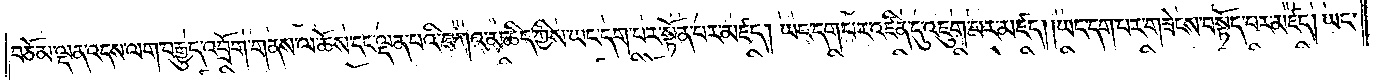བཅོམ་ལྡན་འདས་ལག་བརྒྱུད་འབྲོག་གནས་ལ་ཆོས་དང་ལྡན་པའི་བཀའ་མཆིད་ཀྱིས་ཡང་དག་པར་སྟོན་པར་མཛད། ཡང་དག་པར་འཛིན་དུ་འཇུག་པར་མཛད། །ཡང་དག་པར་གཟེངས་བསྟོད་པར་མཛད། ཡང་
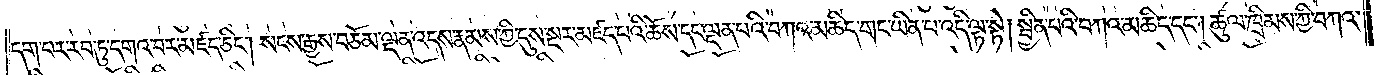དག་པར་རབ་ཏུ་དགའ་བར་མཛད་ཅིང༌། སངས་རྒྱས་བཅོམ་ལྡན་འདས་རྣམས་ཀྱི་དུས་སྔར་མཛད་པའི་ཆོས་དང་ལྡན་པའི་བཀའ་མཆིད་གང་ཡིན་པ་འདི་ལྟ་སྟེ། སྦྱིན་པའི་བཀའ་མཆིད་དང༌། ཚུལ་ཁྲིམས་ཀྱི་བཀའ་
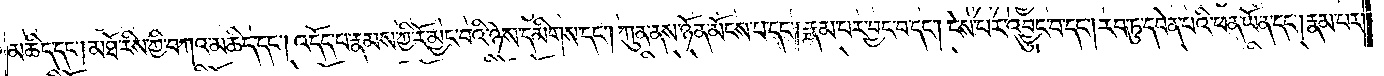མཆིད་དང༌། མཐོ་རིས་ཀྱི་བཀའ་མཆིད་དང༌། འདོད་པ་རྣམས་ཀྱི་རོ་མྱང་བའི་ཉེས་དམིགས་དང༌། ཀུན་ནས་ཉོན་མོངས་པ་དང༌། རྣམ་པར་བྱང་བ་དང༌། ངེས་པར་འབྱུང་བ་དང༌། རབ་ཏུ་དབེན་པའི་ཕན་ཡོན་དང༌། རྣམ་པར་
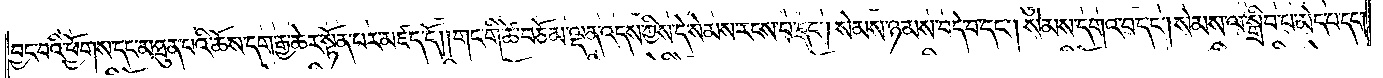བྱང་བའི་ཕྱོགས་དང་མཐུན་པའི་ཆོས་དག་རྒྱ་ཆེར་སྟོན་པར་མཛད་དོ། །གང་གི་ཚེ་བཅོམ་ལྡན་འདས་ཀྱིས་དེ་སེམས་རངས་པ་དང༌། སེམས་ཉམས་བདེ་བ་དང༌། སེམས་དགའ་བ་དང༌། སེམས་ལ་སྒྲིབ་པ་མེད་པ་དང༌།
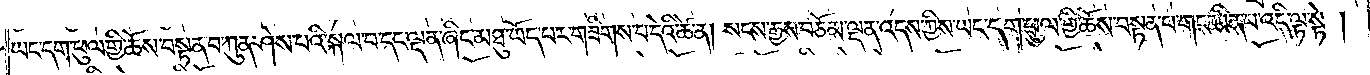ཡང་དག་ཕུལ་གྱི་ཆོས་བསྟན་པ་ཀུན་ཤེས་པའི་སྐལ་བ་དང་ལྡན་ཞིང་མཐུ་ཡོད་པར་གཟིགས་པ་དེའི་ཚེ་ན། སངས་རྒྱས་བཅོམ་ལྡན་འདས་ཀྱིས་ཡང་དག་ཕུལ་གྱི་ཆོས་བསྟན་པ་གང་ཡིན་པ་འདི་ལྟ་སྟེ།
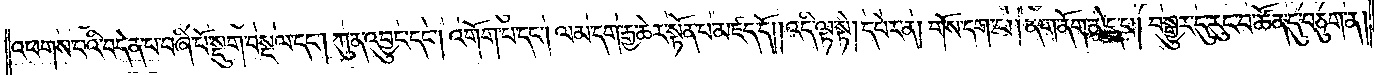འཕགས་པའི་བདེན་པ་བཞི་པོ་སྡུག་བསྔལ་དང༌། ཀུན་འབྱུང་དང༌། འགོག་པ་དང༌། ལམ་དག་རྒྱ་ཆེར་སྟོན་པ་མཛད་དོ། །འདི་ལྟ་སྟེ། དཔེར་ན། གོས་དག་པ། ནག་ནོག་མེད་པ། བསྒྱུར་དུ་རུང་བ་ཚོན་དུ་བཅུག་ན།
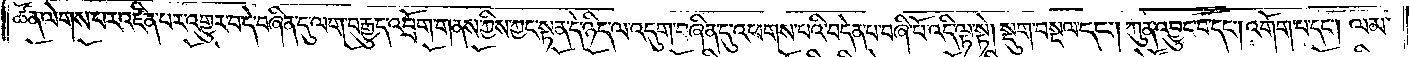ཚོན་ལེགས་པར་འཛིན་པར་འགྱུར་བ་དེ་བཞིན་དུ་ལག་བརྒྱུད་འབྲོག་གནས་ཀྱིས་ཀྱང་སྟན་དེ་ཉིད་ལ་འདུག་བཞིན་དུ་འཕགས་པའི་བདེན་པ་བཞི་པོ་འདི་ལྟ་སྟེ། སྡུག་བསྔལ་དང༌། ཀུན་འབྱུང་བ་དང༌། འགོག་པ་དང༌། ལམ་
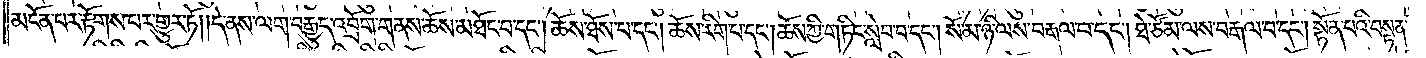མངོན་པར་རྟོགས་པར་གྱུར་ཏོ། །དེ་ནས་ལག་བརྒྱུད་འབྲོག་གནས་ཆོས་མཐོང་བ་དང༌། ཆོས་ཐོས་པ་དང༌། ཆོས་རིག་པ་དང༌། ཆོས་ཀྱི་གཏིང་སླེབ་པ་དང༌། སོ་མ་ཉི་ལས་བརྒལ་བ་དང༌། ཐེ་ཙོམ་ལས་བརྒལ་བ་དང༌། སྟོན་པའི་བསྟན་
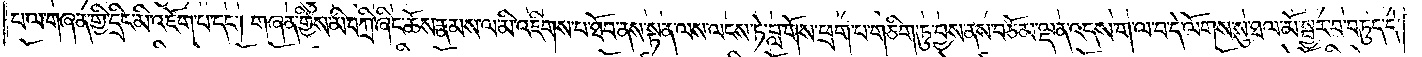པ་ལ་གཞན་གྱི་དྲིང་མི་འཇོག་པ་དང༌། གཞན་གྱིས་མི་བཀྲི་ཞིང་ཆོས་རྣམས་ལ་མི་འཇིགས་པ་ཐོབ་ནས་སྟན་ལས་ལངས་ཏེ་བླ་གོས་ཕྲག་པ་གཅིག་ཏུ་བྱས་ནས་བཅོམ་ལྡན་འདས་ག་ལ་བ་དེ་ལོགས་སུ་ཐལ་མོ་སྦྱར་བ་བཏུད་དེ་
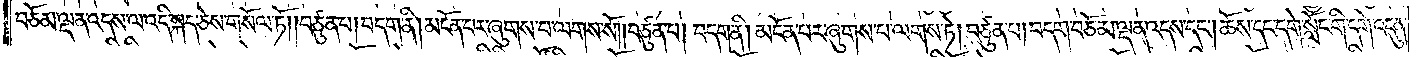བཅོམ་ལྡན་འདས་ལ་འདི་སྐད་ཅེས་གསོལ་ཏོ། །བཙུན་པ། བདག་ནི། མངོན་པར་ཞུགས་པ་ལགས་སོ། །བཙུན་པ། བདག་ནི། མངོན་པར་ཞུགས་པ་ལགས་ཏེ། བཙུན་པ། བདག་བཅོམ་ལྡན་འདས་དང༌། ཆོས་དང་དགེ་སློང་གི་དགེ་འདུན་
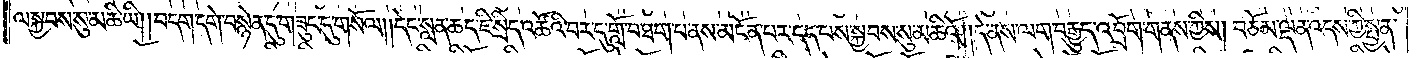ལ་སྐྱབས་སུ་མཆི་ཡི། །བདག་དགེ་བསྙེན་དུ་གཟུང་དུ་གསོལ། །དེང་སླན་ཆད་ཇི་སྲིད་འཚོའི་བར་དུ་གློ་བ་ཐག་པ་ནས་མངོན་པར་དད་པས་སྐྱབས་སུ་མཆིའོ། །དེ་ནས་ལག་བརྒྱུད་འབྲོག་གནས་ཀྱིས། བཅོམ་ལྡན་འདས་ཀྱི་སྤྱན་
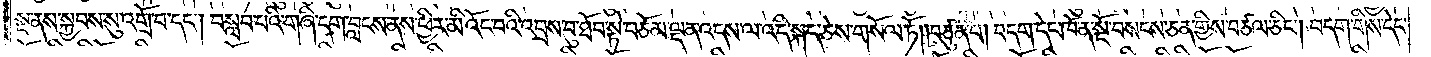སྔ་ནས་སྐྱབས་སུ་འགྲོ་བ་དང༌། བསླབ་པའི་གཞི་དག་བླངས་ནས་ཕྱིར་མི་འོང་བའི་འབྲས་བུ་ཐོབ་སྟེ་བཅོམ་ལྡན་འདས་ལ་འདི་སྐད་ཅེས་གསོལ་ཏོ། །བཙུན་པ། བདག་དེང་ཁོ་ན་སྔོ་བསངས་ཅན་གྱིས་བཙལ་ཅིང༌། བདག་གིས་དེང་
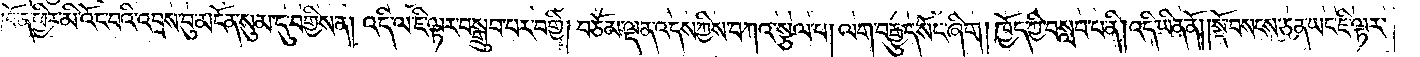ཁོ་ན་ཕྱིར་མི་འོང་བའི་འབྲས་བུ་མངོན་སུམ་དུ་བགྱིས་ན། འདི་ལ་ཇི་ལྟར་བསྒྲུབ་པར་གྱི། བཅོམ་ལྡན་འདས་ཀྱིས་བཀའ་སྩལ་པ། ལག་བརྒྱུད་སོང་ཞིག །ཁྱོད་ཀྱི་བསླབ་པ་ནི། འདི་ཡིན་ནོ། །སྡོ་བསངས་ཅན་ཡང་ཇི་ལྟར་
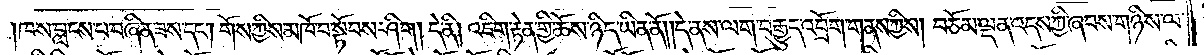ཁས་བླངས་པ་བཞིན་ཟས་དང༌། གོས་ཀྱིས་མཁོ་བ་སྟོབས་ཤིག །དེ་ནི། འཇིག་རྟེན་གྱི་ཆོས་ཉིད་ཡིན་ནོ། །དེ་ནས་ལག་བརྒྱུད་འབྲོག་གནས་ཀྱིས། བཅོམ་ལྡན་འདས་ཀྱི་ཞབས་གཉིས་ལ་
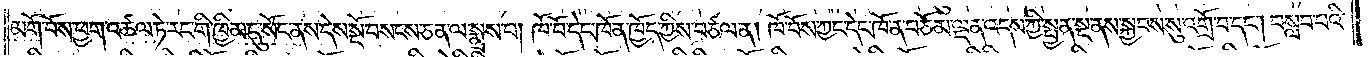མགོ་བོས་ཕྱག་འཚལ་ཏེ་རང་གི་ཁྱིམ་དུ་སོང་ནས་དེས་སྔོ་བསངས་ཅན་ལ་སྨྲས་པ། ཁོ་བོ་དེང་ཁོ་ན་ཁྱོད་ཀྱིས་བཙལ་ན། ཁོ་བོས་ཀྱང་དེང་ཁོ་ན་བཅོམ་ལྡན་འདས་ཀྱིས་སྤྱན་སྔ་ནས་སྐྱབས་སུ་འགྲོ་བ་དང༌། བསླབ་པའི་
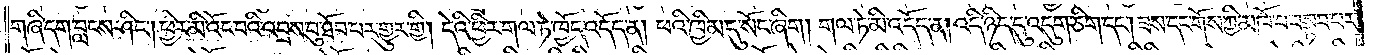གཞི་དག་བླངས་ཤིང༌། ཕྱིར་མི་འོང་བའི་འབྲས་བུ་ཐོབ་པར་གྱུར་གྱི། དེའི་ཕྱིར་གལ་ཏེ་ཁྱོད་འདོད་ན། ཕའི་ཁྱིམ་དུ་སོང་ཞིག །གལ་ཏེ་མི་འདོད་ན། འདི་ཉིད་དུ་འདུག་ཅིག་དང༌། ཟས་དང་གོས་ཀྱི་མཁོ་བ་བསྟབ་པར་
